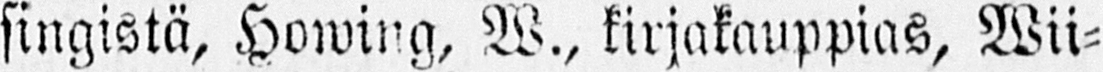singistä, Howing, W., kirjakauppias, Wii-
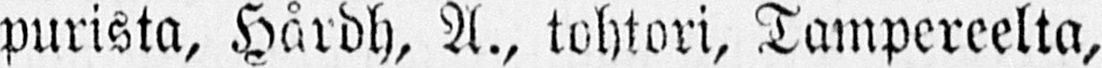purista, Hårdh, A., tohtori, Tampereelta,
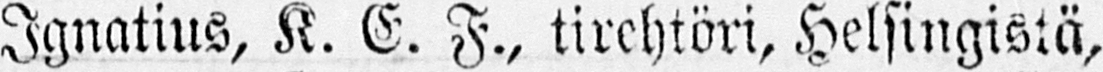Ignatius, K. E. F., tirehtöri, Helsingistä,
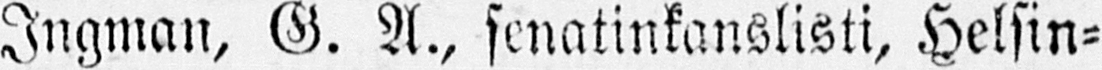Ingman, G. A., senatinkanslisti, Helsin-
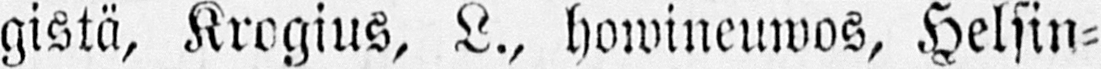gistä, Krogius, L., howineuwos, Helsin-
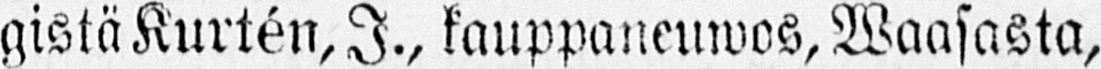gistä Kurtén, I., kauppaneuwos, Waasasta,
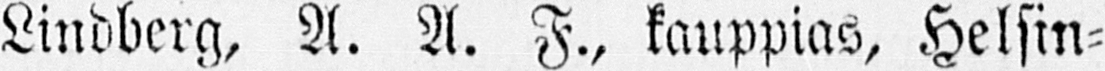Lindberg, A. A. F., kauppias, Helsin-
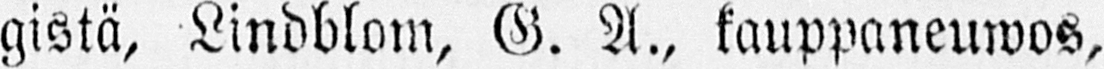gistä, Lindblom, G. A., kauppaneuwos,
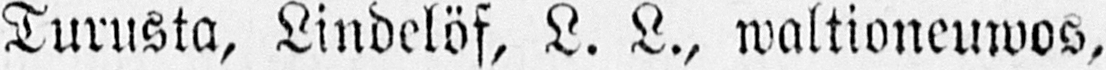Turusta, Lindelöf, L. L., waltioneuwos,
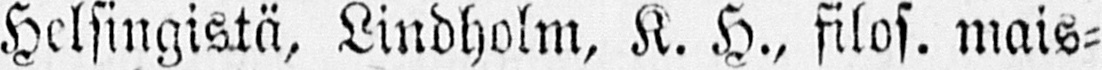Helsingistä, Lindholm, K. H., filos. mais-
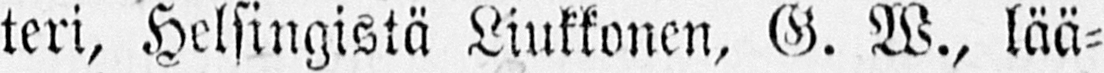teri, Helsingistä Liukkonen, G. W., lää-
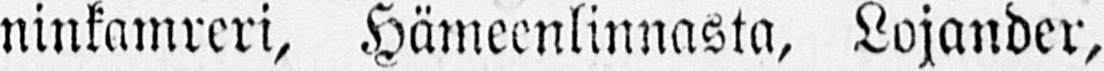ninkamreri, Hämeenlinnasta, Lojander,
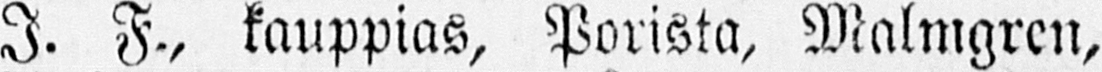I. F., kauppias, Porista, Malmgren,
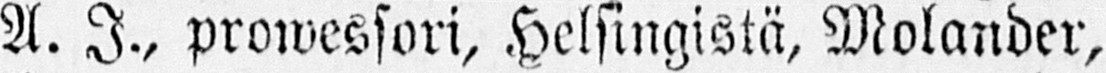A. I., prowessori, Helsingistä, Molander,
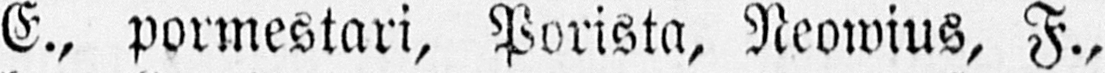E., pormestari, Porista, Neowius, F.,
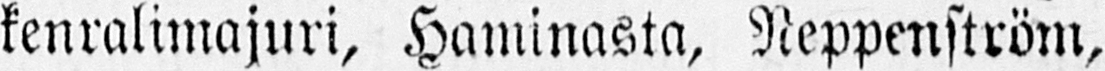kenralimajuri, Haminasta, Neppenström,
